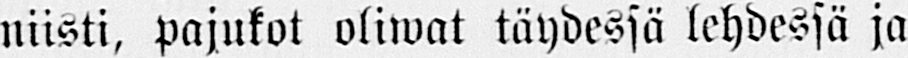niisti, pajukot oliwat täydessä lehdessä ja
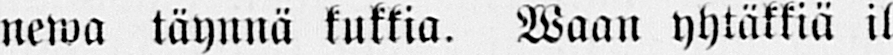newa täynnä kukkia. Waan yhtäkkiä il-
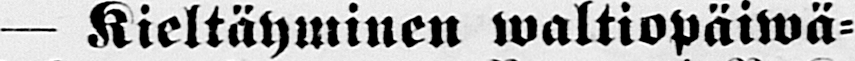— Kieltäyminen waltiopäiwä-
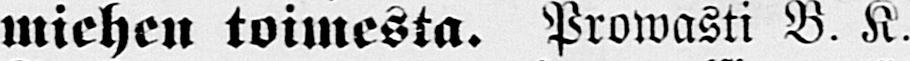miehen toimesta. Prowasti B. K.
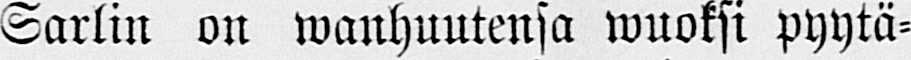Sarlin on wanhuutensa wuoksi pyytä-
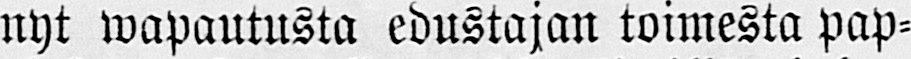nyt wapautusta edustajan toimesta pap-
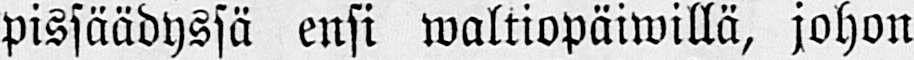pissäädyssä ensi waltiopäiwillä, johon
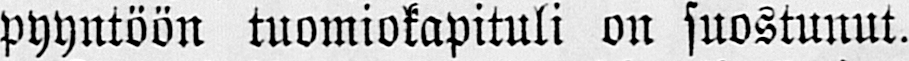pyyntöön tuomiokapituli on suostunut.
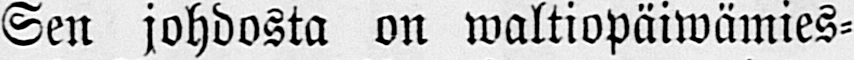Sen johdosta on waltiopäiwämies-
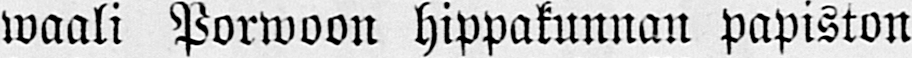waali Porwoon hippakunnan papiston
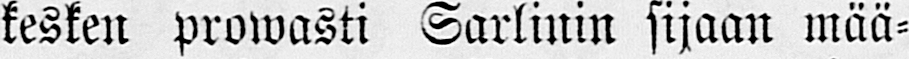kesken prowasti Sarlinin sijaan mää-
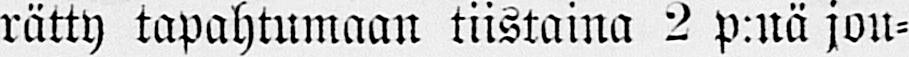rätty tapahtumaan tiistaina 2 p:nä jou-
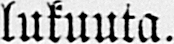lukuuta.
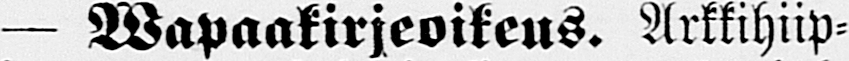— Wapaakirjeoikeus. Arkkihiip-
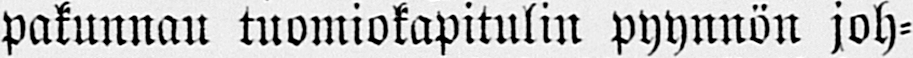pakunnau tuomiokapitulin pyynnön joh-
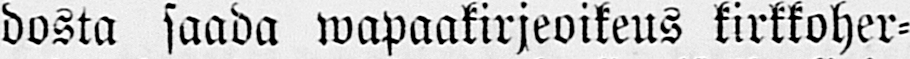dosta saada wapaakirjeoikeus kirkkoher-
